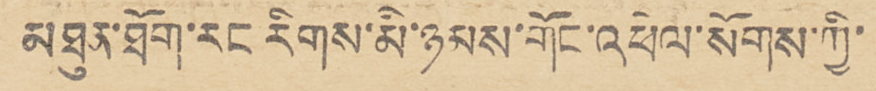མཐུན་ཐོག་རང རིགས་མི་ཉམས་གོང་འཕེལ་སོགས་ཀྱི་
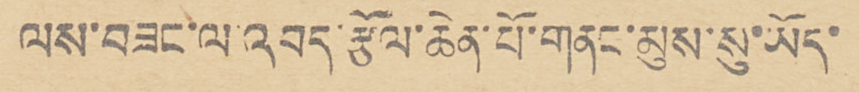ལས་བཟང་ལ་འབད་རྩོལ་ཆེན་པོ་གནང་མུས་སུ་ཡོད་
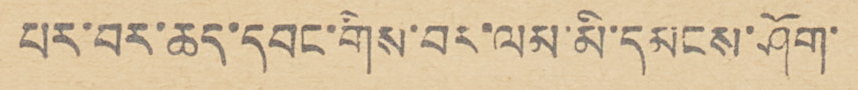པར་བར་ཆད་དབང་གིས་བར་ལམ་མི་དམངས་ཤོག་
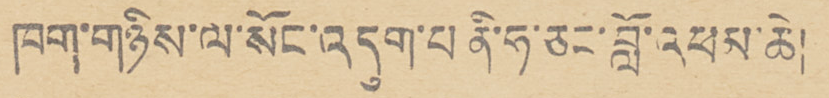ཁག་གཉིས་ལ་སོང་འདུག་པ ནི་ཧ་ཅང་བློ་འཕམ་ཆེ།
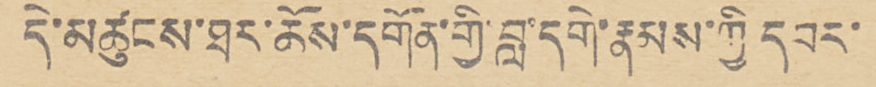དེ་མཚུངས་ཐར་ཆོས་དགོན་གྱི་བླ་དགེ་རྣམས་ཀྱི དབར་
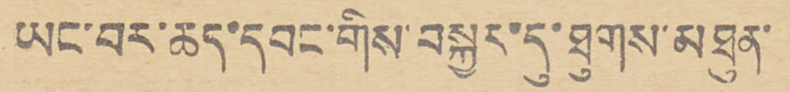ཡང་བར་ཆད་དབང་གིས་བསྐྱར་དུ་ཐུགས་མཐུན་
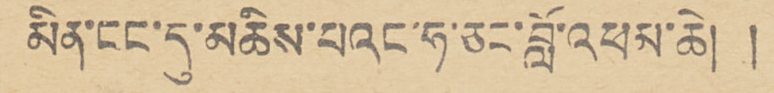མིན་ངང་དུ་མཆིས་པའང་ཧ་ཅང་བློ་འཕམ་ཆེ། །
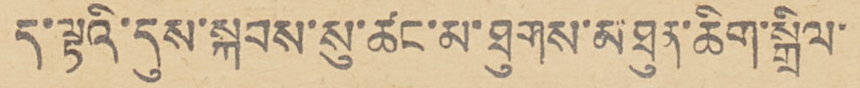ད་ལྟའི་དུས་སྐབས་སུ་ཚང་མ་ཐུགས་མཐུན་ཆིག་སྒྲིལ་
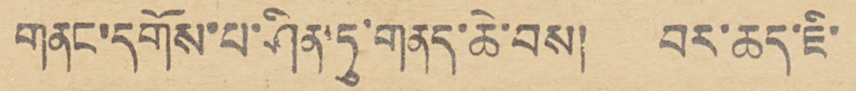གནང་དགོས་པ་ཤིན་ཏུ་གནད་ཆེ་བས། བར་ཆད་ཇི་
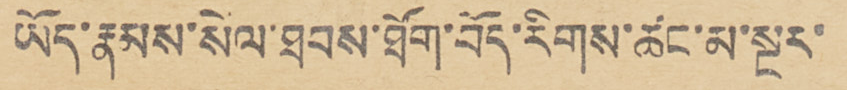ཡོད་རྣམས་སེལ་ཐབས་ཐོག་བོད་རིགས་ཚང་མ་སྔར་
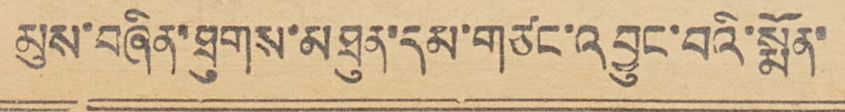མུས་བཞིན་ཐུགས་མཐུན་དམ་གཙང་འབྱུང་བའི་སྨོན་
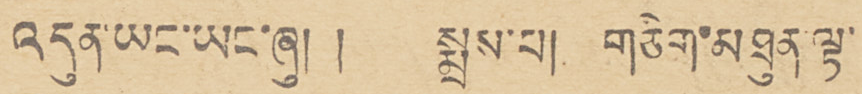འདུན་ཡང་ཡང་ཞུ། །     སྨྲས་པ།  གཅིག་མཐུན་ལྟ་
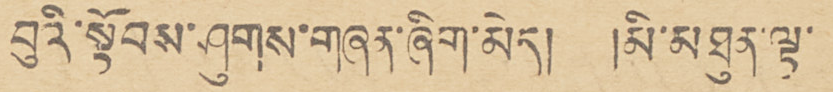བུའི་སྟོབས་ཤུགས་གཞན་ཞིག་མེད།   །མི་མཐུན་ལྟ་
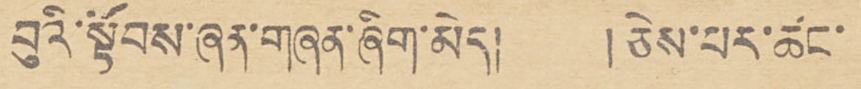བུའི་སྟོབས་ཞན་གཞན་ཞིག་མེད།    ། ཅེས་པར་ཚང་
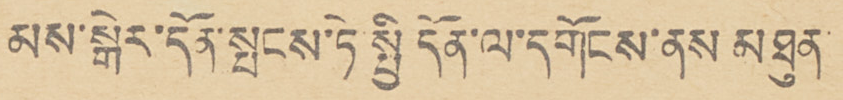མས་སྒེར་དོན་སྤངས་ཏེ་སྤྱི དོན་ལ་དགོངས་ནས མཐུན་
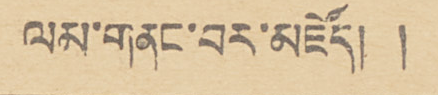ལམ་གནང་བར་མཛེད།  །
